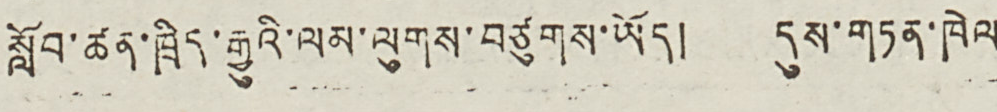སློབ་ཚན་ཁྲིད་རྒྱུའི་ལམ་ལུགས་བཙུགས་ཡོད། དུས་གཏན་ཁེལ
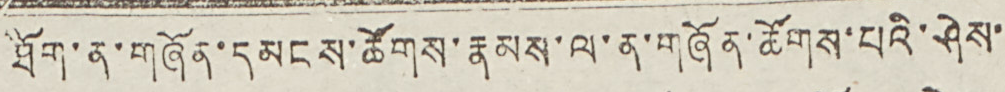ཐོག་ན་གཞོན་དམངས་ཚོགས་རྣམས་ལ་ན་གཞོན་ཚོག་ས་པའི་ཤེས་
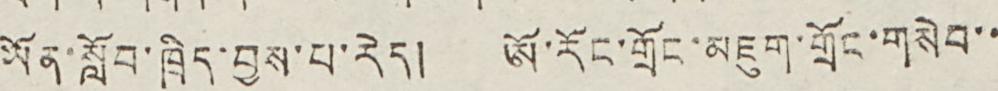ཡོན་སློབ་ཁྲིད་བྱས་པ་རེད། ཨོ་རོང་གྲོང་མཇུག་གྲོང་གསེབ་་
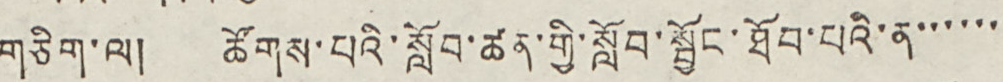གཅིག་ལ། ཚོགས་པའི་སློབ་ཚན་གྱི་སློབ་སྦྱོང་ཐོབ་པའི་ན་་་་་་
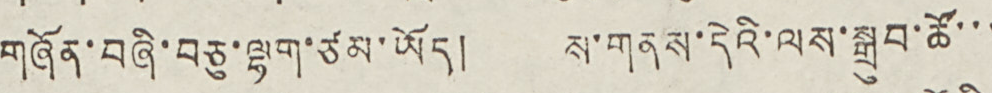གཞོན་བཞི་བཅུ་ལྷག་ཙམ་ཡོད། ས་གནས་དེའི་ལས་སྒྲུབ་ཚོ་་་
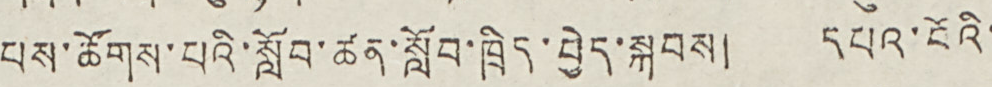པས་ཚོགས་པའི་སློབ་ཚན་སློབ་ཁྲིད་བྱེད་སྐབས། དཔའ་ངོའི་
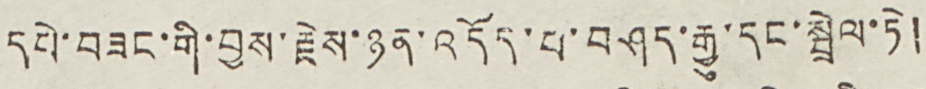དཔེ་བཟང་གི་བྱས་རྗེས་ཉན་འདོད་པ་བཤད་རྒྱུ་དང་སྦྲེལ་ཏེ།
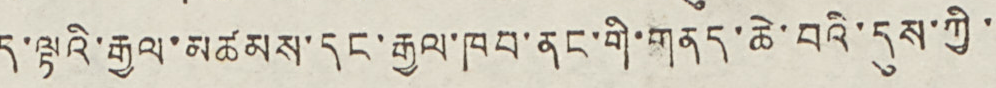ད་ལྟའི་རྒྱལ་མཚམས་དང་རྒྱལ་ཁབ་ནང་གི་གནད་ཆེ་བའི་དུས་ཀྱི་
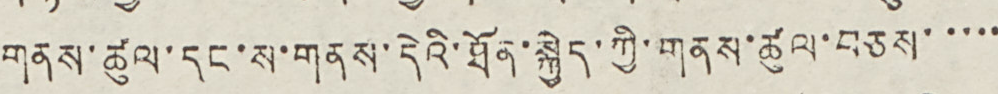གནས་ཚུལ་དང་ས་གནས་དེའི་ཐོན་སྐྱེད་ཀྱི་གནས་ཚུལ་བཅས་་་་་
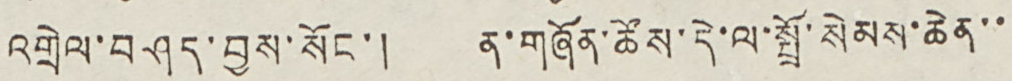འགྲེལ་བཤད་བྱས་སོང་། ན་གཞོན་ཚོས་དེ་ལ་སྤྲོ་སེམས་ཆེན་་
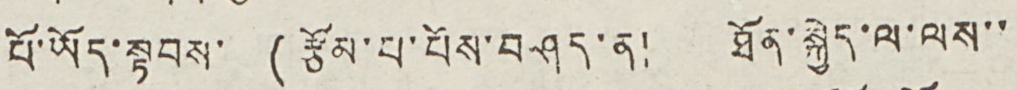པོ་ཡོད་སྟབས་ (རྩོམ་པ་པོས་བཤད་ན། ཐོན་སྐྱེད་ལ་ལས་་
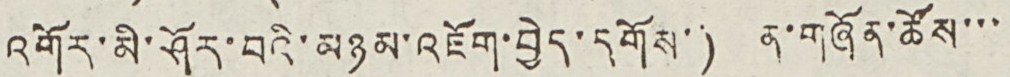འགོར་མི་ཤོར་བའི་མཉམ་འཇོག་བྱེད་དགོས་) ན་གཞོན་ཚོས་་་
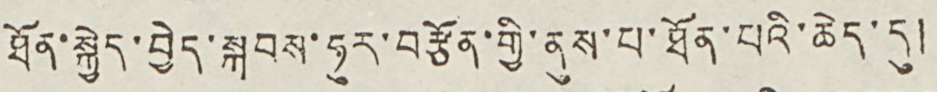ཐོན་སྐྱེད་བྱེད་སྐབས་ཧུར་བརྩོན་གྱི་ནུས་པ་ཐོན་པའི་ཆེད་དུ།
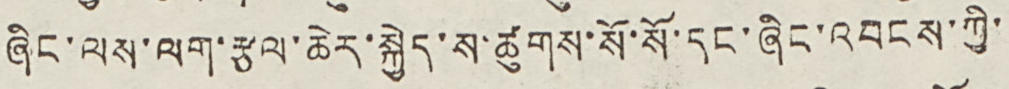ཞིང་ལས་ལག་རྩལ་ཆེར་སྐྱེད་ས་ཚུགས་སོ་སོ་དང་ཞིང་འབངས་ཀྱི་
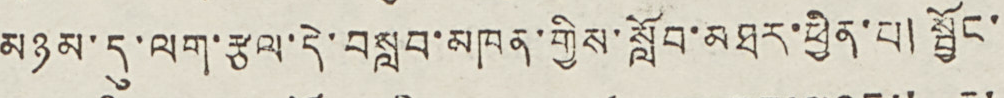མཉམ་དུ་ལག་རྩལ་དེ་བསླབ་མཁན་གྱིས་སློབ་མཐར་ཕྱིན་པ། སྦྱོང་
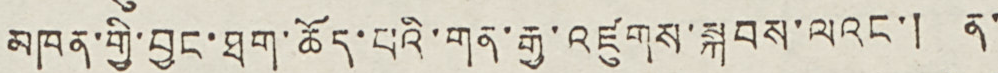མཁན་གྱི་བྱང་ཐག་ཆོད་པའི་གན་རྒྱ་འཛུགས་སྐབས་ལའང་། ན་
